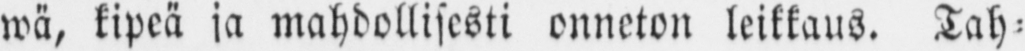wä, kipeä ja mahdollisesti onneton leikkaus. Tah-
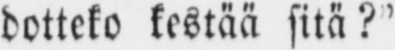dotteko kestää sitä?'
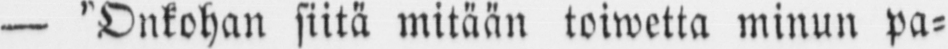— ”Onkohan siitä mitään toiwetta minun pa-
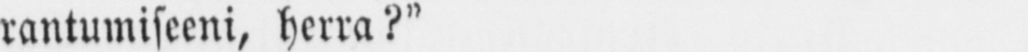rantumiseeni, herra?”
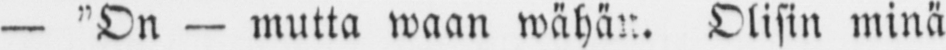— ”On — mutta waan wähän. Olisin minä
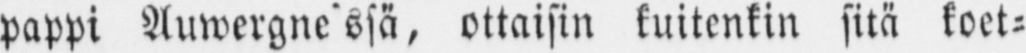pappi Auwergne’ssä, ottaisin kuitenkin sitä koet-
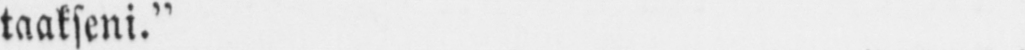taakseni.”
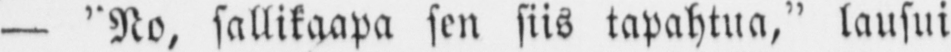— ”No, sallikaapa sen siis tapahtua,” lausui
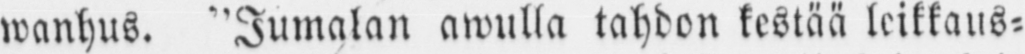wanhus. ”Jumalan awulla tahdon kestää leikkaus-
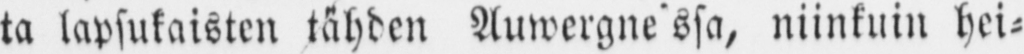ta lapsukaisten täyden Auwergne’ssä, niinkuin hei-
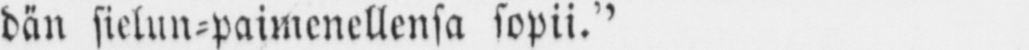dän sielun-paimenellensa sopii.”
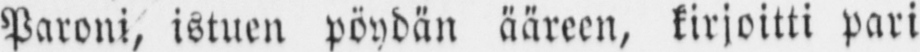Paroni, istuen pöydän ääreen, kirjoitti pari
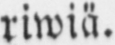riwiä.
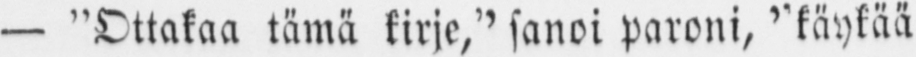— ”Ottakaa tämä kirje,” sanoi paroni, ”käykää
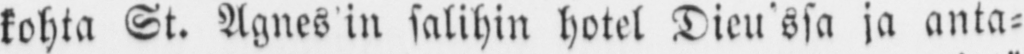kohta St. Agnes in salihin hotel Dieu’ssa ja anta-
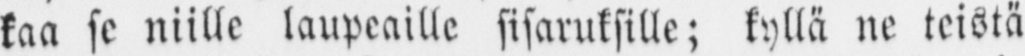kaa se niille laupeaille sisaruksille; kyllä ne teistä
